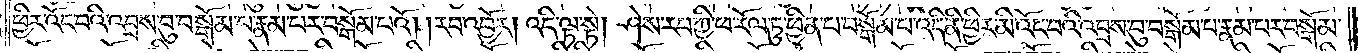ཕྱིར་འོང་བའི་འབྲས་བུ་བསྒོམ་པ་རྣམ་པར་བསྒོམ་པའོ། །རབ་འབྱོར། འདི་ལྟ་སྟེ། ཤེས་རབ་ཀྱི་ཕ་རོལ་ཏུ་ཕྱིན་པ་བསྒོམ་པ་འདི་ནི་ཕྱིར་མི་འོང་བའི་འབྲས་བུ་བསྒོམ་པ་རྣམ་པར་བསྒོམ་
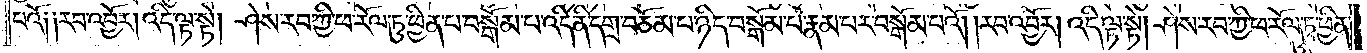པའོ། །རབ་འབྱོར། འདི་ལྟ་སྟེ། ཤེས་རབ་ཀྱི་ཕ་རོལ་ཏུ་ཕྱིན་པ་བསྒོམ་པ་འདི་ནི་དགྲ་བཅོམ་པ་ཉིད་བསྒོམ་པ་རྣམ་པར་བསྒོམ་པའོ། །རབ་འབྱོར། འདི་ལྟ་སྟེ། ཤེས་རབ་ཀྱི་ཕ་རོལ་ཏུ་ཕྱིན་
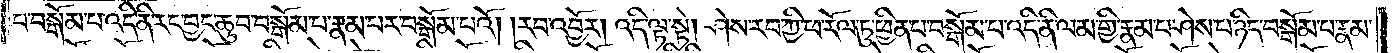པ་བསྒོམ་པ་འདི་ནི་རང་བྱང་ཆུབ་བསྒོམ་པ་རྣམ་པར་བསྒོམ་པའོ། །རབ་འབྱོར། འདི་ལྟ་སྟེ། ཤེས་རབ་ཀྱི་ཕ་རོལ་ཏུ་ཕྱིན་པ་བསྒོམ་པ་འདི་ནི་ལམ་གྱི་རྣམ་པ་ཤེས་པ་ཉིད་བསྒོམ་པ་རྣམ་
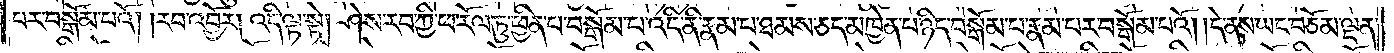པར་བསྒོམ་པའོ། །རབ་འབྱོར། འདི་ལྟ་སྟེ། ཤེས་རབ་ཀྱི་ཕ་རོལ་ཏུ་ཕྱིན་པ་བསྒོམ་པ་འདི་ནི་རྣམ་པ་ཐམས་ཅད་མཁྱེན་པ་ཉིད་བསྒོམ་པ་རྣམ་པར་བསྒོམ་པའོ། །དེ་ནས་ཡང་བཅོམ་ལྡན་
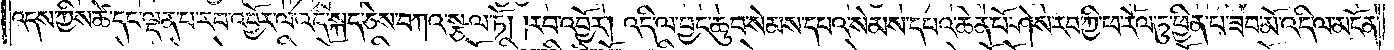འདས་ཀྱིས་ཚེ་དང་ལྡན་པ་རབ་འབྱོར་ལ་འདི་སྐད་ཅེས་བཀའ་སྩལ་ཏོ། །རབ་འབྱོར། འདི་ལ་བྱང་ཆུབ་སེམས་དཔའ་སེམས་དཔའ་ཆེན་པོ་ཤེས་རབ་ཀྱི་ཕ་རོལ་ཏུ་ཕྱིན་པ་ཟབ་མོ་འདི་ལ་མངོན།
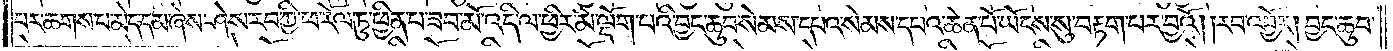པར་ཆགས་པ་མེད་དམ་ཞེས་ཤེས་རབ་ཀྱི་ཕ་རོལ་ཏུ་ཕྱིན་པ་ཟབ་མོ་འདི་ལ་ཕྱིར་མི་ལྡོག་པའི་བྱང་ཆུབ་སེམས་དཔའ་སེམས་དཔའ་ཆེན་པོ་ཡོངས་སུ་བརྟག་པར་བྱའོ༎ རབ་འབྱོར། བྱང་ཆུབ་
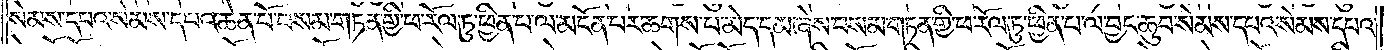སེམས་དཔའ་སེམས་དཔའ་ཆེན་པོ་བསམ་གཏན་གྱི་ཕ་རོལ་ཏུ་ཕྱིན་པ་ལ་མངོན་པར་ཆགས་པ་མེད་དམ་ཞེས་བསམ་གཏན་གྱི་ཕ་རོལ་ཏུ་ཕྱིན་པ་ལ་བྱང་ཆུབ་སེམས་དཔའ་སེམས་དཔའ་
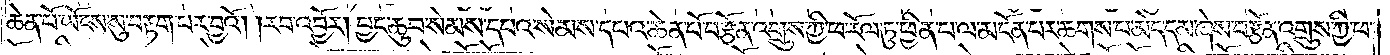ཆེན་པོ་ཡོངས་སུ་བརྟག་པར་བྱའོ། །རབ་འབྱོར། བྱང་ཆུབ་སེམས་དཔའ་སེམས་དཔའ་ཆེན་པོ་བརྩོན་འགྲུས་ཀྱི་ཕ་རོལ་ཏུ་ཕྱིན་པ་ལ་མངོན་པར་ཆགས་པ་མེད་དམ་ཞེས་བརྩོན་འགྲུས་ཀྱི་ཕ་
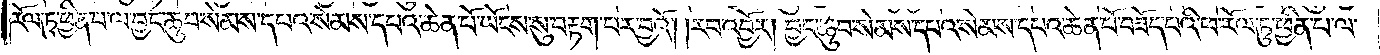རོལ་ཏུ་ཕྱིན་པ་ལ་བྱང་ཆུབ་སེམས་དཔའ་སེམས་དཔའ་ཆེན་པོ་ཡོངས་སུ་བརྟག་པར་བྱའོ། །རབ་འབྱོར། བྱང་ཆུབ་སེམས་དཔའ་སེམས་དཔའ་ཆེན་པོ་བཟོད་པའི་ཕ་རོལ་ཏུ་ཕྱིན་པ་ལ་
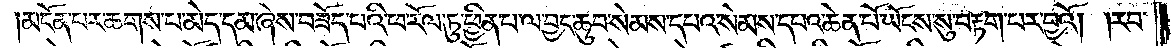མངོན་པར་ཆགས་པ་མེད་དམ་ཞེས་བཟོད་པའི་ཕ་རོལ་ཏུ་ཕྱིན་པ་ལ་བྱང་ཆུབ་སེམས་དཔའ་སེམས་དཔའ་ཆེན་པོ་ཡོངས་སུ་བརྟག་པར་བྱའོ། །རབ་
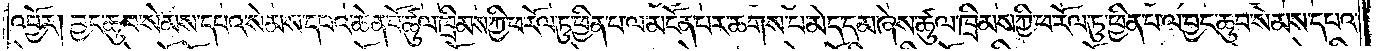འབྱོར། བྱང་ཆུབ་སེམས་དཔའ་སེམས་དཔའ་ཆེན་པོ་ཚུལ་ཁྲིམས་ཀྱི་ཕ་རོལ་ཏུ་ཕྱིན་པ་ལ་མངོན་པར་ཆགས་པ་མེད་དམ་ཞེས་ཚུལ་ཁྲིམས་ཀྱི་ཕ་རོལ་ཏུ་ཕྱིན་པ་ལ་བྱང་ཆུབ་སེམས་དཔའ་
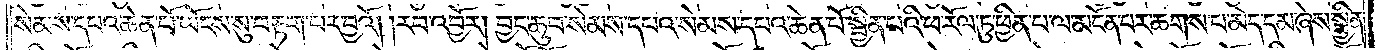སེམས་དཔའ་ཆེན་པོ་ཡོངས་སུ་བརྟག་པར་བྱའོ། །རབ་འབྱོར། བྱང་ཆུབ་སེམས་དཔའ་སེམས་དཔའ་ཆེན་པོ་སྦྱིན་པའི་ཕ་རོལ་ཏུ་ཕྱིན་པ་ལ་མངོན་པར་ཆགས་པ་མེད་དམ་ཞེས་སྦྱིན་
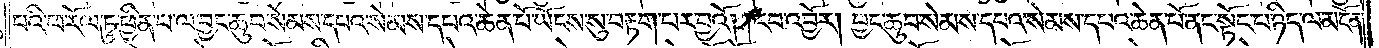པའི་ཕ་རོལ་ཏུ་ཕྱིན་པ་ལ་བྱང་ཆུབ་སེམས་དཔའ་སེམས་དཔའ་ཆེན་པོ་ཡོངས་སུ་བརྟག་པར་བྱའོ། །རབ་འབྱོར། བྱང་ཆུབ་སེམས་དཔའ་སེམས་དཔའ་ཆེན་པོ་ནང་སྟོང་པ་ཉིད་ལ་མངོན་
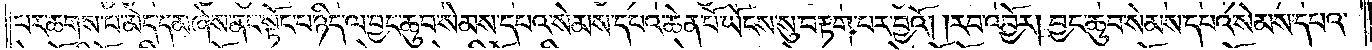པར་ཆགས་པ་མེད་དམ་ཞེས་ནང་སྟོང་པ་ཉིད་ལ་བྱང་ཆུབ་སེམས་དཔའ་སེམས་དཔའ་ཆེན་པོ་ཡོངས་སུ་བརྟག་པར་བྱའོ། །རབ་འབྱོར། བྱང་ཆུབ་སེམས་དཔའ་སེམས་དཔའ་
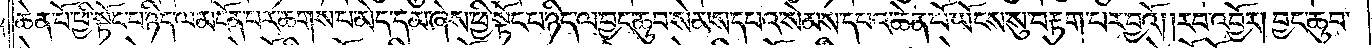ཆེན་པོ་ཕྱི་སྟོང་པ་ཉིད་ལ་མངོན་པར་ཆགས་པ་མེད་དམ་ཞེས་ཕྱི་སྟོང་པ་ཉིད་ལ་བྱང་ཆུབ་སེམས་དཔའ་སེམས་དཔའ་ཆེན་པོ་ཡོངས་སུ་བརྟག་པར་བྱའོ། །རབ་འབྱོར། བྱང་ཆུབ་
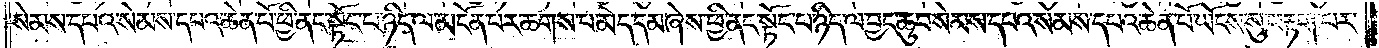སེམས་དཔའ་སེམས་དཔའ་ཆེན་པོ་ཕྱི་ནང་སྟོང་པ་ཉིད་ལ་མངོན་པར་ཆགས་པ་མེད་དམ་ཞེས་ཕྱི་ནང་སྟོང་པ་ཉིད་ལ་བྱང་ཆུབ་སེམས་དཔའ་སེམས་དཔའ་ཆེན་པོ་ཡོངས་སུ་བརྟག་པར་
